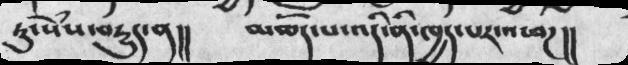ཏུ་སེཾས་བརྱུད་ན།།  མཆོད་པ་འདི་ནི་ཁྱད་པར་འཕཌ།།
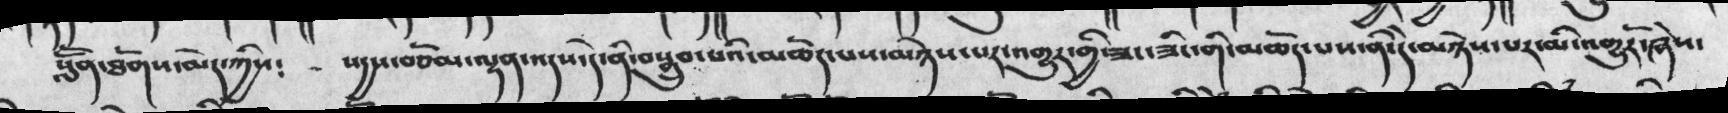སློོན་ཐོགས་མེད་ཀྱིས༴  སདྱས་བཅོམ་ལྡན་འདས་དེ་ནི་བསྒྲུབ་པའི་མཆོད་པས་མཉེས་པར་འགྱུར་གྱི་ཟང་ཟིང་གི་མཆོད་པས་ནི་དེ་མཉེས་པར་མི་འགྱུརོ་ཞེས་
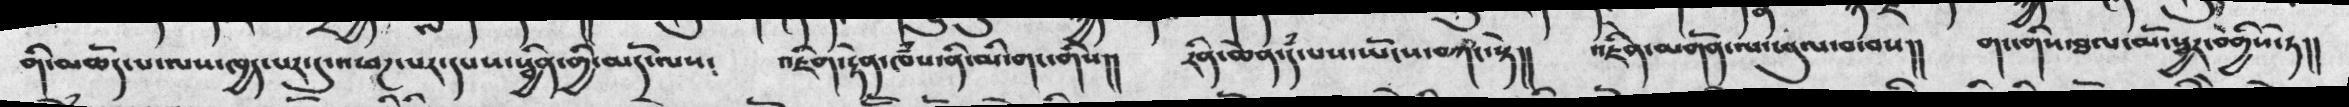གི་མཆོད་པ་ལས་ཁྱད་པར་དུ་འཕཌ་པར་དཔས་སྦྱིན་གྱི་མདོ་ལས༴  འཇིག་རྟེན་ཁཾས་ནི་མི་གང་གིས།།  རིན་ཆེན་དཾ་པས་ཡོངས་བཀང་སྟེ།།  འཇིན་མགོན་ལ་ཕུལ་བ་བས།།  གང་གིས་ཐལ་མོ་སྦྱར་བགྱིས་ཏེ།།
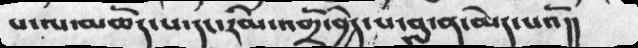པ་ལ་མཆོད་པ་དང་རིམ་འགྲོ་བྱེད་པ་བླ་ན་མེད་པའོ།།
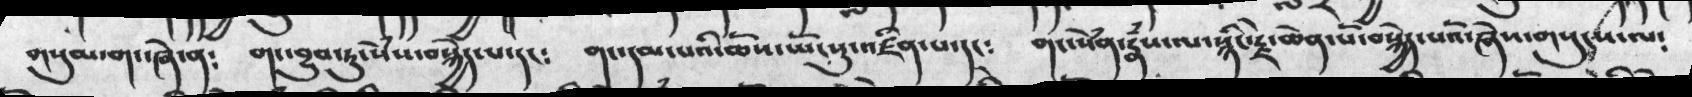གསུམ་གང་ཞེ་ན༴   གང་བྱུབ་ཏུ་སེཾས་བསྐྱེད་པ་དང༴  གང་དམ་པའི་ཆོས་ཡོངསུ་འཛིན་པ་དང༴  གང་སེཾན་རྣཾས་ལ་སྙིང་རྗེ་ཆེན་པོ་བསྐྱེད་པའོ་ཞེས་གསུངས་ལ༴
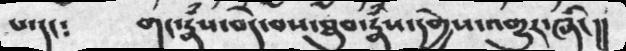པ་དང༴  གང་རྣཾས་བདེ་བས་ཐུབ་རྣཾས་དགྱེས་འགྱུར་ཞིང།།
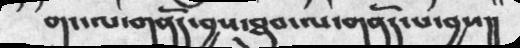གང་ལ་གནོད་བྱས་ཐུབ་ལ་གནོད་པ་བྱས།།
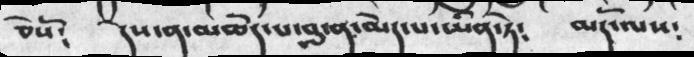ཅེསོ༴  དེས་ན་མཆོད་པ་བླ་ན་མེད་པ་ཡིན་ཏེ༴  མདོ་ལས༴
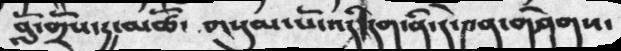བློ་གྲོས་དྱ་མཚོ་  གསུམ་པོ་འདི་དག་ནི་དེ་༤ན་གཤེགས་
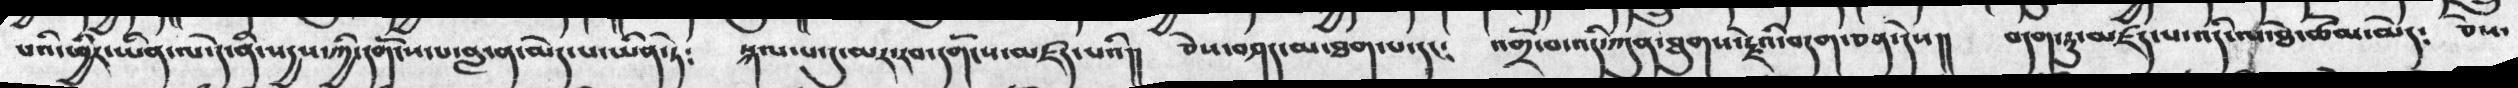པའི་ཕྱིར་ཡིན་ལ་དེ་ནི་སདྱས་ཀྱི་དགོངས་པ་བླ་ན་མེད་པ་ཡིན་ཏེ༴  སྐལ་པ་དུ་མར་རབ་དགོངས་མཛད་པའི།།  ཅེས་བཤད་མ་ཐག་པ་དང༴  འགྲོ་བ་འདི་ཀུན་ཐུགས་རྗེའི་བདག་ཅན་དེས།།  བདག་ཏུ་མཛད་པ་འདི་ལ་ཐེ་ཚོམ་མེད༴  ཅེས་
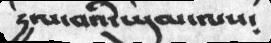དྱལ་བའི་ཡུམ་ལས༴
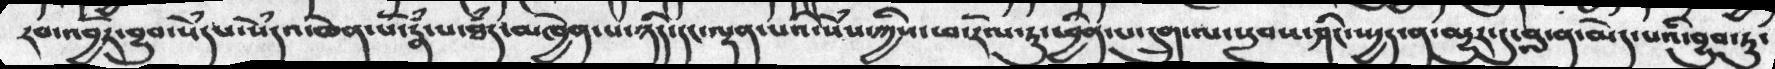རན་འབྱོར་བྱུབ་སེཾདཔ་སེཾདའ་ཆེན་པོ་རྣཾ་པ་ཐཾད་མཁྱེན་པ་ཉིད་དང་ལྡན་པའི་སེཾས་ཀྱིས་ཕ་རོལ་ཏུ་ཕྱིན་པ་དྲུག་ལ་སླབས་ཤིང་སྤྱད་ན་མྱུར་དུ་བླ་ན་མེད་པའི་བྱུབ་ཏུ་
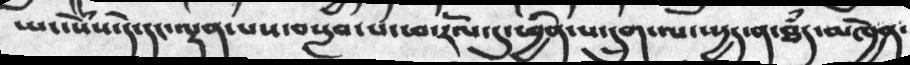ཡང་སེཾས་དེ་དང་ལྡན་པས་བསྔབ་པ་ཕ་རོལ་དུ་ཕྱིན་པ་དྲུག་ལ་སྤྱད་ན་ཐཾད་མཁྱེན་
